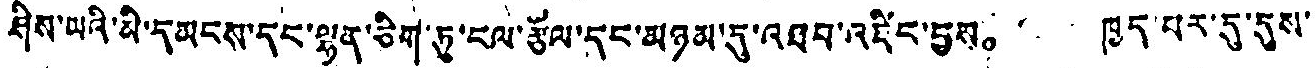ཤིས་ཡའི་མི་དམངས་དང་ལྷན་ཅིག་ཏུ་ངལ་རྩོལ་དང་མཉམ་དུ་འཐབ་འཛིང་བྱས。 ཁྱད་པར་དུ་དུས་
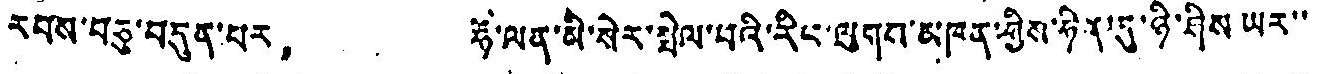རོབས་བཅུ་བདུན་པར， ཧོ་ལན་མི་སེར་སྤེལ་བའི་རིང་ལུགས་མཁན་གྱིས་ཉིན་དུ་ཉི་ཤིས ཡར་་
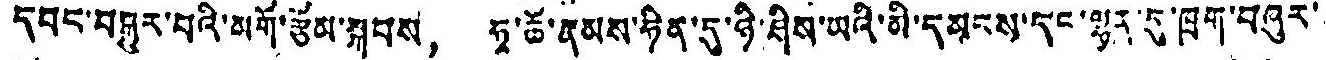དབང་བསྐུར་བའི་མགོ་རྩོམ་སྐབས， ཧྭ་ཆོ་རྣམས་ཧིན་དུ་ཉི་ཤིས་ཡའི་མི་དམངས་དང་ལྷར་དུ་ཁྲག་བཞུར་
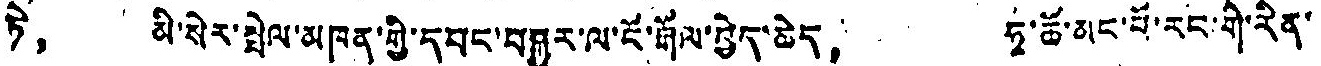ཏེ， མི་སེར་སྤེལ་མཁན་གྱི་དབང་བསྐྱུར་ལ་ངོ་རྒོལ་བྱེད་ཆེད， ཧྭ་ཆོ་མང་པོ་རང་གི་རིན་
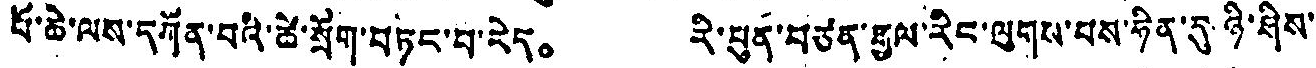པ་ཆེ་ལས་དཀོན་པའི་ཚེ་སྲོག་བཏང་བ་རེད。 རི་པུན་བཙན་རྒྱལ་རིང་ལུགས་པས་ཧིན་དུ་ཉི་ཤིས་
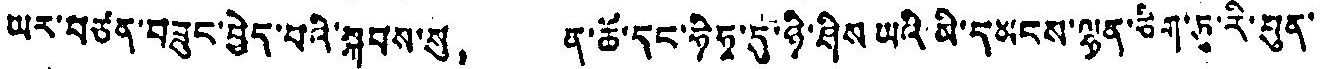ཡར་བཙན་བཟུང་བྱེད་པའི་སྐབས་སུ， ན་ཆོ་དང་ཧི་ཧྭ་དུ་ཉི་ཤིས ཡའི་མི་དམངས་ལྷན་ཅིག་ཏུ་རི་བུན་
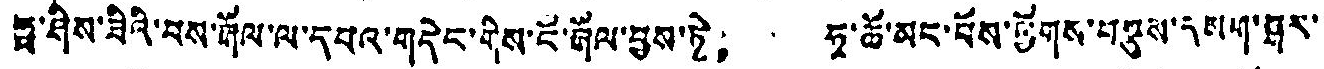ཧྥ་ཤེས་ཟིའི་པས་རྒོལ་ལ་དཔའ་གདེང་གིས་ངོ་རྒོལ་བྱས་ཏེ， ཧྭ་ཆོ་མང་པོས་ཕྱོགས་བསྡུས་དམག་ཤར་
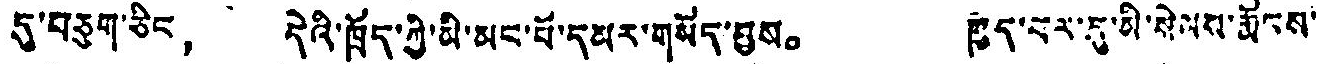དུ་བཅུག་ཅིང， དེའི་ཁྲོད་ཀྱི་མི་མང་པོ་དམར་གསོད་བྱས。 ཁྱེད་བར་དུ་མི་སེམས་རྨོངས་
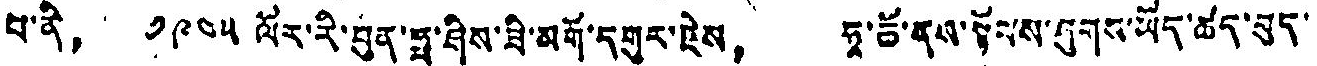པ་ནི， ༡༩༤༥ ལོར་རི་བུན་ཧྥ་ཤིས་ཟི་མགོ་དགུར་རྗེས， ཧྭ་ཆོ་ནས་སྟོབས་ཤུགས་ཡོད་ཚད་བུད་
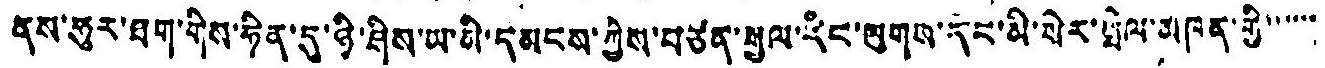འོས་ཧུར་ཐག་གིས་ཧིན་དུ་ཉི་ཤིས་ཡ་མི་དམངས་ཀྱིས་བཙན་ཕུལ་རིང་ལུགས་དང་མི་སེར་སྤེལ་མཁན་གྱི་་་་་་་
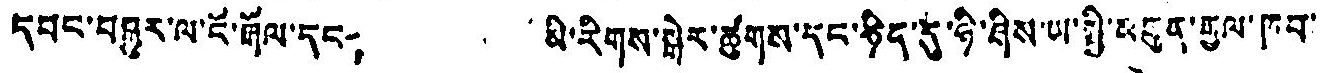དབང་བསྐུར་ལ་ངོ་རྒོལ་དང， མི་རིགས་སྒེར་ཚུགས་དང་ཉིད་དུ་ཧི་ཤིས་ཡ་སྤྱི་མངུན་རྒྱལ་ཁབ་
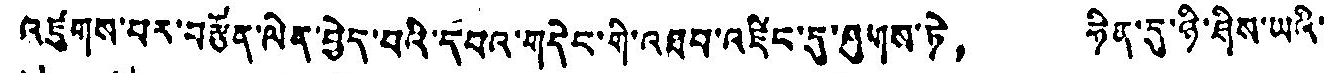འཛུགས་པར་བརྩོན་ལེན་བྱེད་པའི་དབའ་གདེང་གི་འཐབ་འཛིང་དུ་ཞུགས་ཏེ， ཧིན་དུ་ཉི་ཤིས་ཡའི་
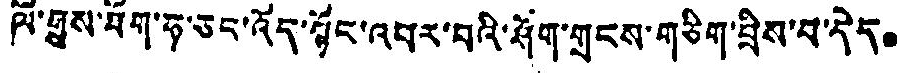ལོ་རྒྱུས་ཐོག་ཧ་ཅང་འོད་སྟོང་འབར་བའི་ཤོག་གྲངས་གཅིག་བྲིས་པ་དེད。
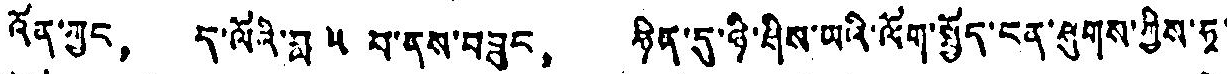འོན་ཀྱང， ད་ལོའི་ཟླ ༥ པ་ནས་བཟུང， ཧིན་དུ་ཉི་ཤིས་ཡའི་ལོག་སྤྱོད་ངན་ཤུགས་ཀྱིས་ཧྭ་
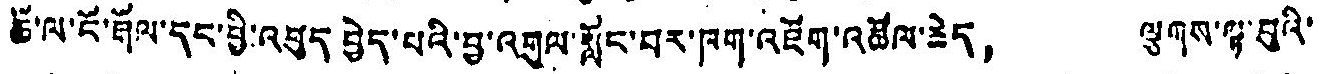ཆོ་ལ་ངོ་རྒོལ་དང་ཕྱི་འཐུད བྱེད་པའི་བྱ་འགུལ་སློང་བར་ཁག་འཇོག་འཚོལ་རེད， ལྕགས་ལྟ་བུའི་
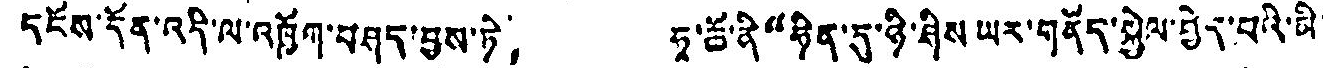དངོས་དོན་འདི་ལ་འཁྱོག་བཤད་བྱས་ཏེ， ཧྭ་ཆོ་ནི“ཧིན་དུ་ཉི་ཤིས ཡར་གནོད་སྐྱེལ་བྱེད་པའི་མི་
